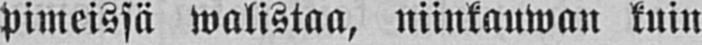pimeissä walistaa, niinkauwan kuin
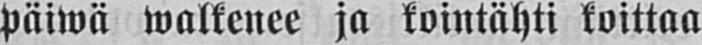päiwä walkenee ja kointähti koittaa
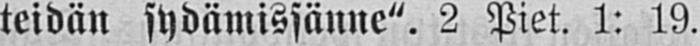teidän sydämissänne". 2 Piet. 1: 19.
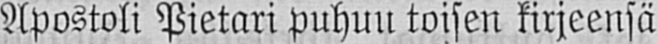Apostoli Pietari puhuu toisen kirjeensä
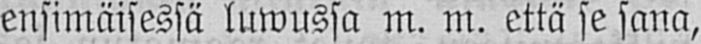ensimäisessä luwussa m. m. että se sana,
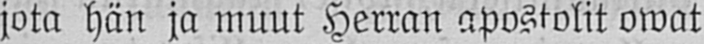jota hän ja muut Herran apostolit owat
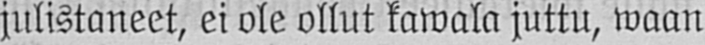julistaneet, ei ole ollut kawala juttu, waan
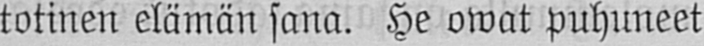totinen elämän sana. He owat puhuneet
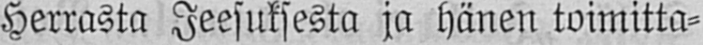Herrasta Jeesuksesta ja hänen toimitta-
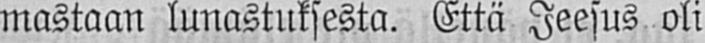mastaan lunastuksesta. Että Jeesus oli
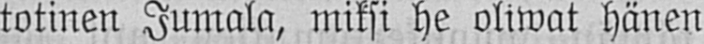totinen Jumala, miksi he oliwat hänen
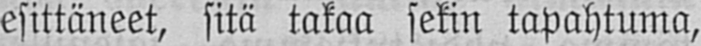esittäneet, sitä takaa sekin tapahtuma,
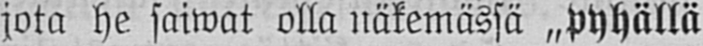jota he saiwat olla näkemässä „pyhällä
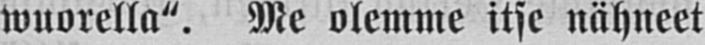wuorella". Me olemme itse nähneet
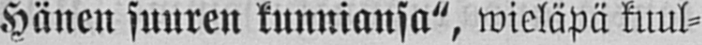Hänen suuren kunniansa", wieläpä kuul-
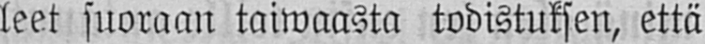leet suoraan taiwaasta todistuksen, että
